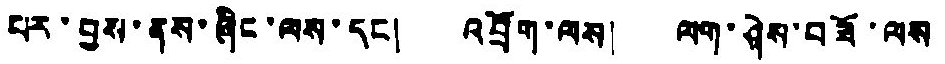པར་བྱས་ནས་ཞིང་ལས་དང ། འབྲོག་ལས། ལག་ཤེས་བཟོ་ལས
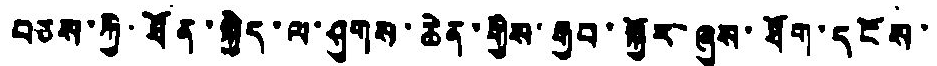བཅས་ཀྱི་ཐོན་སྐྱེད་ལ་ཤུགས་ཆེན་གྱིས་རྒྱབ་སྐྱོར་ཞུས་ཐོག་དངོས་
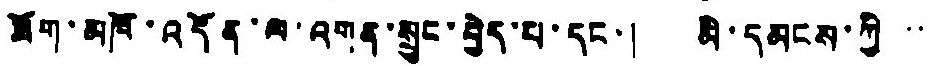ཟོག་མཁོ་འདོན་ལ་འགན་སྲུང་བྱེད་པ་དང་། མི་དམངས་ཀྱི་་
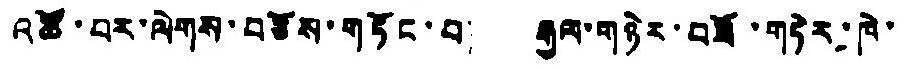འཚོ་བར་ལེགས་བཅོས་གཏོང་བ། རྒྱལ་གཉེར་བཟོ་གཏེར་ཁེ་
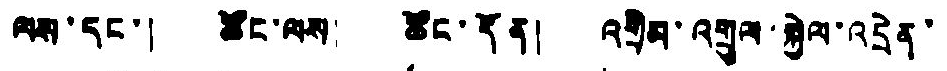ལས་དང་། ཚོང་ལས། ཚོང་དོན། འགྲིམ་འགྲུལ་སྐྱེལ་འདྲེན་་
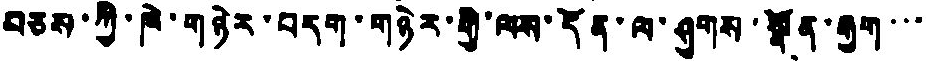བཅས་ཀྱི་ཁེ་གཉེར་བདག་གཉེར་གྱི་ལས་དོན་ལ་ཤུགས་སྣོན་རྒྱག་་་
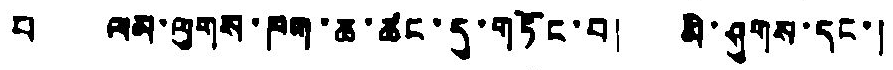པ ལམ་ལུགས་ཁག་ཆ་ཚང་དུ་གཏོང་བ། མི་ཤུགས་དང་།
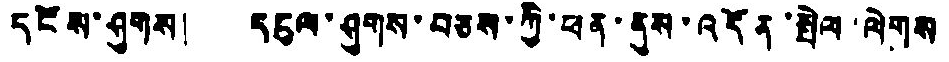དངོས་ཤུགས། དངུལ་ཤུགས་བཅས་ཀྱི་ཕན་ནུས་འདོན་སྤེལ ལེགས
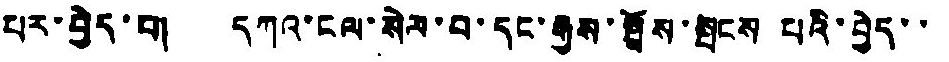པར་བྱེད་པ། དཀའ་ངལ་སེལ་བ་དང་རྒྱས་སྤྲོས་སྤངས པའི་བྱེད་་
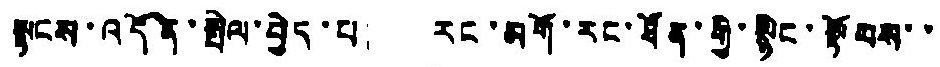སྟངས་འདོན་སྤེལ་བྱེད་པ རང་མགོ་རང་ཐོན་གྱི་སྙིང་སྟོབས་་
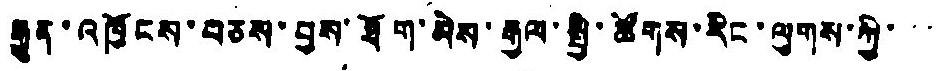རྒྱུན་འཁྱོངས་བཅས་བྱས་ཐོག་མེས་རྒྱལ་སྤྱི་ཚོགས་རིང་ལུགས་ཀྱི་་་
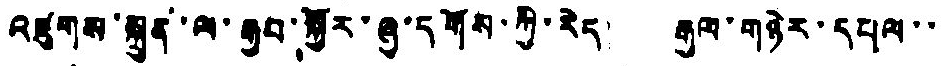འཛུགས་སྐྲུན་ལ་རྒྱབ་སྐྱོར་ཞུ་དགོས་ཀྱི་རེད རྒུལ་གཉེར་དཔལ་་
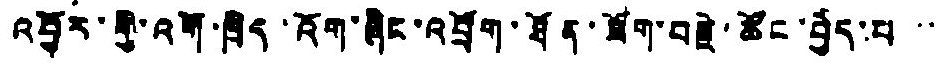འབྱོར་གྱི་འགོ་ཁྲིད་འོག་ཞིང་འབྲོག་ཐོན་ཟོག་བརྗེ་ཚོང་བྱེད་པ་་
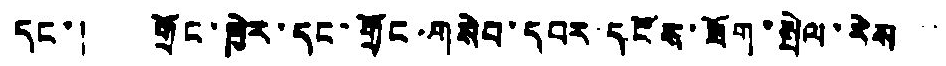དང། གྲོང་ཁྱེར་དང་གྲོང་གསེབ་དབར་དངོས་ཟོག་སྤེལ་རེས་་
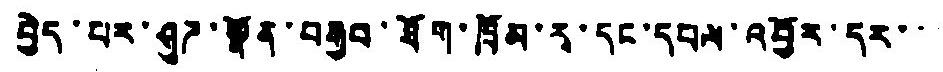བྱེད་པར་ཤུཌ་སྣོན་བརྒྱབ་ཐོག་ཁྲོམ་རྭ་དང་དཔལ་འབྱོར་དར་་
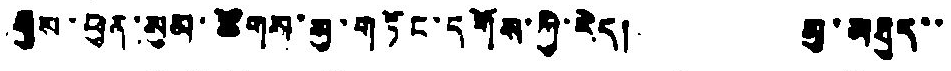རྒྱས་ཕུན་མུམ་ཚོགས་སུ་གཏོང་དགོས་ཀྱི་རེད། མུ་མཐུད་་
